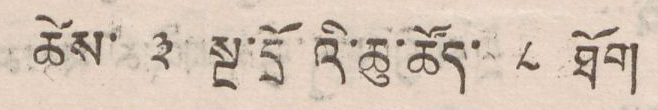ཚེས་ ༣ སྔ་དྲོའི་ཆུ་ཚོད་ ༨ ཐོག
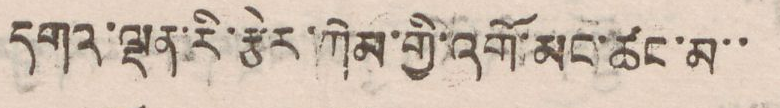དགའ་ལྡན་རི་རྩེར་ཀེམ་གྱི་འགོ་མང་ཚང་མ་་
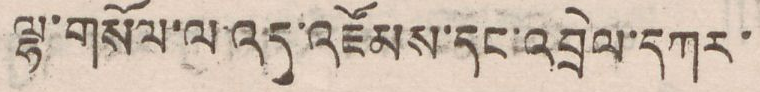ལྷ་གསོལ་ལ་འདུ་འཛོམས་དང་འབྲེལ་དཀར་
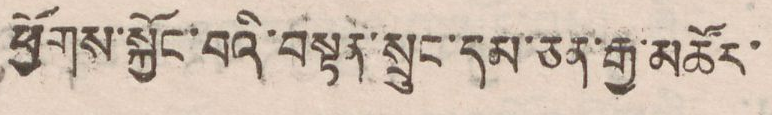ཕྱོགས་སྐྱོང་བའི་བསྟན་སྲུང་དམ་ཅན་རྒྱ་མཚོར་
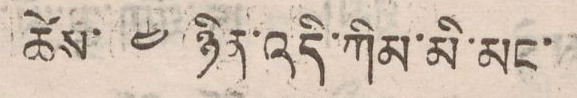ཚེས་ ༤ ཉིན་འདི་ཀིམ་མི་མང་
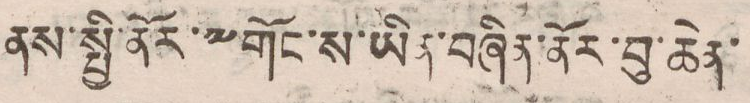ནས་སྤྱི་ནོར་༸གོང་ས་ཡིན་བཞིན་ནོར་བུ་ཆེན་
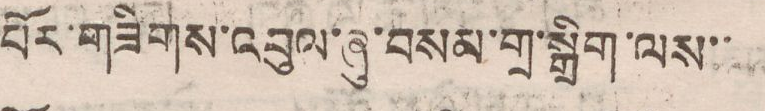པོར་གཟིགས་འབུལ་ཞུ་བསམ་གྲ་སྒྲིག་ལས་་
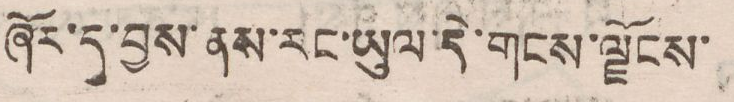ཞོར་དུ་བྱས་ནས་རང་ཡུལ་དེ་གངས་ལྗོངས་
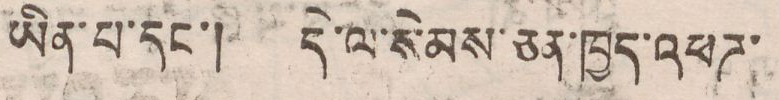ཡིན་པ་དང་། དེ་ལ་སེམས་ཅན་ཁྱད་འཕཌ་
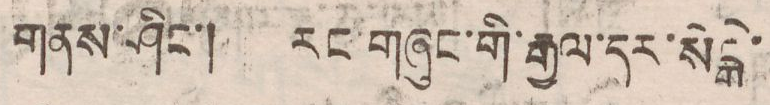གནས་ཤིང་། རང་གཞུང་གི་རྒྱལ་དར་སེངྒེ་
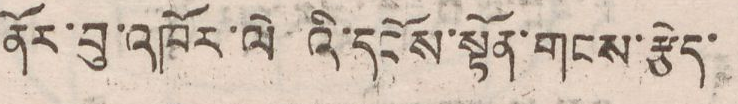ནོར་བུ་འཁོར་ལེ འི་དངོས་སྟོན་གངས་རྩེད་
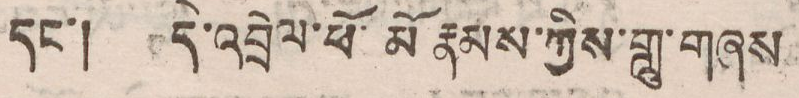དང་། དེ་འབྲེལ་ཕོ་མོ རྣམས་ཀྱིས་གླུ་གཞས
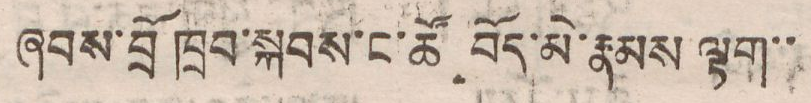ཞབས་བྲོ ཁྲབ་སྐབས་ང་ཚོ བོད་མི་རྣམས་ལྷག་་
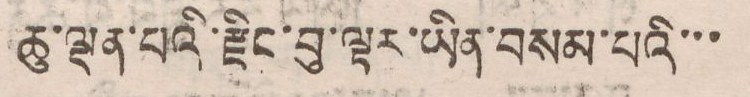ཆུ་ལྡན་པའི་རྫིང་བུ་ལྟར་ཡིན་བསམ་པའི་་་
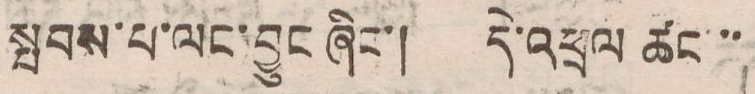སྤབས་པ་ལང་བྱུང་ཞིང་། དེ་འཕྲལ ཚང་་
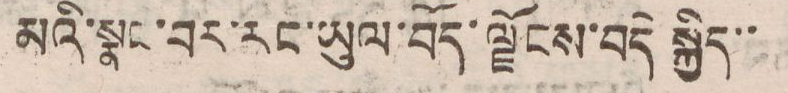མའི་སྣང་བར་རང་ཡུལ་བོད་ལྗོངས་བདེ སྐྱིད་་
